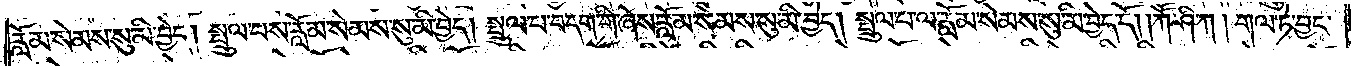རློམ་སེམས་སུ་མི་བྱེད། སྤྲུལ་པས་རློམ་སེམས་སུ་མི་བྱེད། སྤྲུལ་པ་བདག་གི་ཞེས་རློམ་སེམས་སུ་མི་བྱེད། སྤྲུལ་པ་ལ་རློམ་སེམས་སུ་མི་བྱེད་དོ། །ཀཽ་ཤི་ཀ། གལ་ཏེ་བྱང་
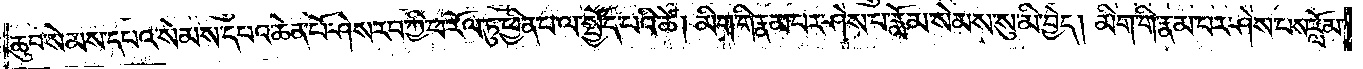ཆུབ་སེམས་དཔའ་སེམས་དཔའ་ཆེན་པོ་ཤེས་རབ་ཀྱི་ཕ་རོལ་ཏུ་ཕྱིན་པ་ལ་སྤྱོད་པའི་ཚེ། མིག་གི་རྣམ་པར་ཤེས་པ་རློམ་སེམས་སུ་མི་བྱེད། མིག་གི་རྣམ་པར་ཤེས་པས་རློམ་
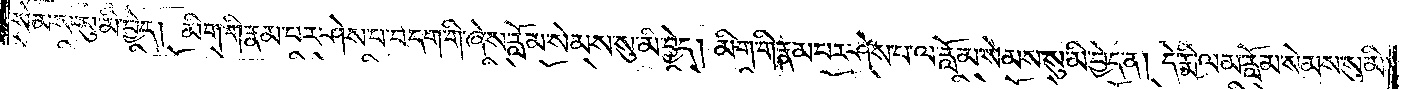སེམས་སུ་མི་བྱེད། མིག་གི་རྣ་པར་ཤེས་པ་བདག་གི་ཞེས་རློམ་སེམས་སུ་མི་བྱེད། མིག་གི་རྣམ་པར་ཤེས་པ་ལ་རློམ་སེམས་སུ་མི་བྱེད་ན། དེ་རྨི་ལམ་རློམ་སེམས་སུ་མི་
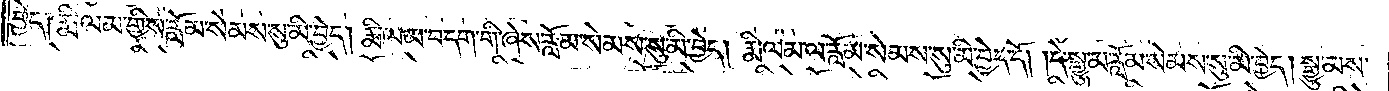བྱེད། རྨི་ལམ་གྱིས་རློམ་སེམས་སུ་མི་བྱེད། རྨི་ལམ་བདག་གི་ཞེས་རློམ་སེམས་སུ་མི་བྱེད། རྨི་ལམ་ལ་རློམ་སེམས་སུ་མི་བྱེད་དོ། །དེ་སྒྱུ་མ་རློམ་སེམས་སུ་མི་བྱེད། སྒྱུ་མས་
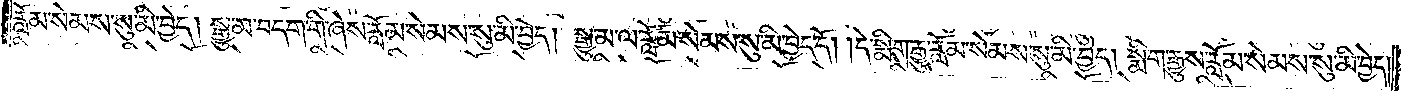རློམ་སེམས་སུ་མི་བྱེད། སྒྱུ་མ་བདག་གི་ཞེས་རློམ་སེམས་སུ་མི་བྱེད། སྒྱུ་མ་ལ་རློམ་སེམས་སུ་མི་བྱེད་དོ། །དེ་སྨིག་རྒྱུ་རློམ་སེམས་སུ་མི་བྱེད། སྨིག་རྒྱུས་རློམ་སེམས་སུ་མི་བྱེད།
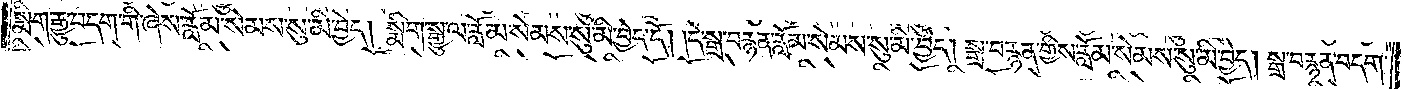སྨིག་རྒྱུ་བདག་གི་ཞེས་རློམ་སེམས་སུ་མི་བྱེད། སྨིག་སྒྱུ་ལ་རློམ་སེམས་སུ་མི་བྱེད་དོ། །དེ་སྒྲ་བརྙན་རློམ་སེམས་སུ་མི་བྱེད། སྒྲ་བརྙན་གྱིས་རློམ་སེམས་སུ་མི་བྱེད། སྒྲ་བརྙན་བདག་
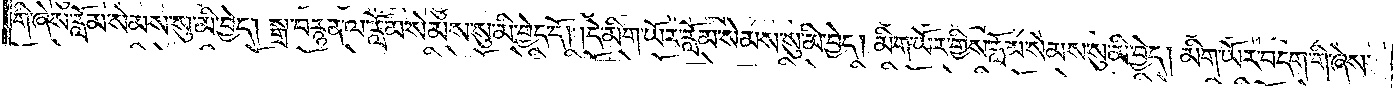གི་ཞེས་རློམ་སེམས་སུ་མི་བྱེད། སྒྲ་བརྙན་ལ་རློམ་སེམས་སུ་མི་བྱེད་དོ། །དེ་མིག་ཡོར་རློམ་སེམས་སུ་མི་བྱེད། མིག་ཡོར་གྱིས་རློམ་སེམས་སུ་མི་བྱེད། མིག་ཡོར་བདག་གི་ཞེས་
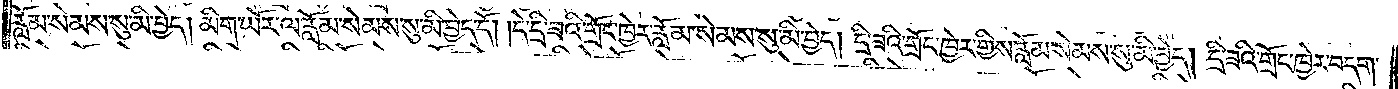རློམ་སེམས་སུ་མི་བྱེད། མིག་ཡོར་ལ་རློམ་སེམས་སུ་མི་བྱེད་དོ། །དེ་དྲི་ཟའི་གྲོང་ཁྱེར་རློམ་སེམས་སུ་མི་བྱེད། དྲི་ཟའི་གྲོང་ཁྱེར་གྱིས་རློམ་སེམས་སུ་མི་བྱེད། དྲི་ཟའི་གྲོང་ཁྱེར་བདག་
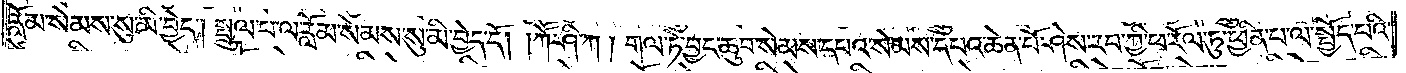རློམ་སེམས་སུ་མི་བྱེད། སྤྲུལ་པ་ལ་རློམ་སེམས་སུ་མི་བྱེད་དོ། །ཀཽ་ཤི་ཀ། གལ་ཏེ་བྱང་ཆུབ་སེམས་དཔའ་སེམས་དཔའ་ཆེན་པོ་ཤེས་རབ་ཀྱི་ཕ་རོལ་ཏུ་ཕྱིན་པ་ལ་སྤྱོད་པའི་
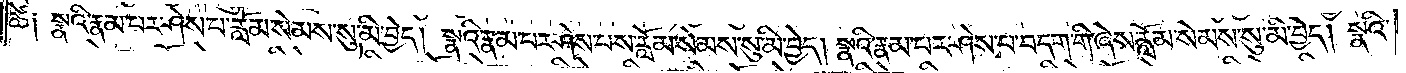ཚེ༑ སྣའི་རྣམ་པར་ཤེས་པ་རློམ་སེམས་སུ་མི་བྱེད། སྣའི་རྣམ་པར་ཤེས་པས་རློམ་སེམས་སུ་མི་བྱེད། སྣའི་རྣམ་པར་ཤེས་པ་བདག་གི་ཞེས་རློམ་སེམས་སུ་མི་བྱེད། སྣའི་
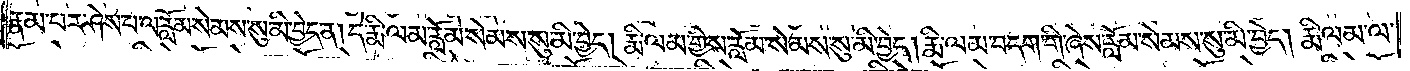རྣམ་པར་ཤེས་པ་ལ་རློམ་སེམས་སུ་མི་བྱེད་ན། དེ་རྨི་ལམ་རློམ་སེམས་སུ་མི་བྱེད། རྨི་ལམ་གྱིས་རློམ་སེམས་སུ་མི་བྱེད། རྨི་ལམ་བདག་གི་ཞེས་རློམ་སེམས་སུ་མི་བྱེད། རྨི་ལམ་ལ་
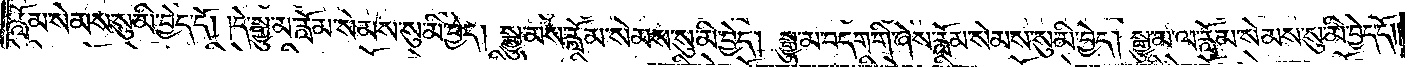རློམ་སེམས་སུ་མི་བྱེད་དོ། །དེ་སྒྱུ་མ་རློམ་སེམས་སུ་མི་བྱེད། སྒྱུ་མས་རློམ་སེམས་སུ་མི་བྱེད། སྒྱུ་མ་བདག་གི་ཞེས་རློམ་སེམས་སུ་མི་བྱེད། སྒྱུ་མ་ལ་རློམ་སེམས་སུ་མི་བྱེད་དོ། །
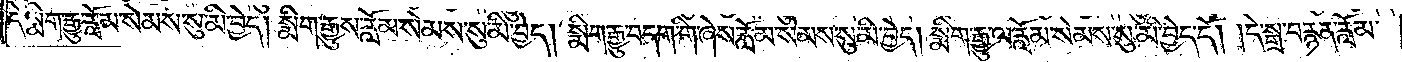དེ་སྨིག་རྒྱུ་རློམ་སེམས་སུ་མི་བྱེད། སྨིག་རྒྱུས་རློམ་སེམས་སུ་མི་བྱེད། སྨིག་རྒྱུ་བདག་གི་ཞེས་རློམ་སེམས་སུ་མི་བྱེད། སྨིག་རྒྱུ་ལ་རློམ་སེམས་སུ་མི་བྱེད་དོ། །དེ་སྒྲ་བརྙན་རློམ་
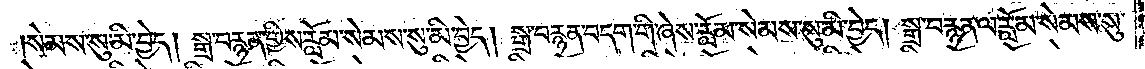སེམས་སུ་མི་བྱེད། སྒྲ་བརྙན་གྱིས་རློམ་སེམས་སུ་མི་བྱེད། སྒྲ་བརྙན་བདག་གི་ཞེས་རློམ་སེམས་སུ་མི་བྱེད། སྒྲ་བརྙན་ལ་རློམ་སེམས་སུ་
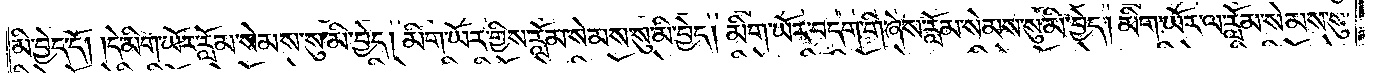མི་བྱེད་དོ། །དེ་མིག་ཡོར་རློམ་སེམས་སུ་མི་བྱེད། མིག་ཡོར་གྱིས་རློམ་སེམས་སུ་མི་བྱེད། མིག་ཡོར་བདག་གི་ཞེས་རློམ་སེམས་སུ་མི་བྱེད། མིག་ཡོར་ལ་རློམ་སེམས་སུ་
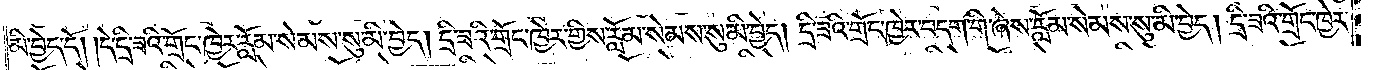མི་བྱེད་དོ། །དེ་དྲི་ཟའི་གྲོང་ཁྱེར་རློམ་སེམས་སུ་མི་བྱེད། དྲི་ཟའི་གྲོང་ཁྱེར་གྱིས་རློམ་སེམས་སུ་མི་བྱེད། དྲི་ཟའི་གྲོང་ཁྱེར་བདག་གི་ཞེས་རློམ་སེམས་སུ་མི་བྱེད། དྲི་ཟའི་གྲོང་ཁྱེར་
